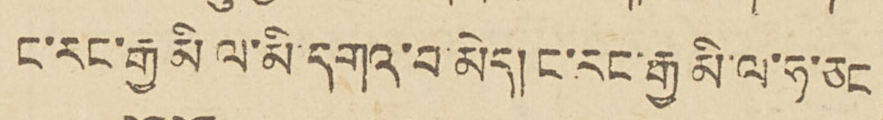ང་རང་རྒྱ མི ལ་མི་དགའ་བ་མེད། ང་རང་རྒྱ མི་ལ་ཧ་ཅང
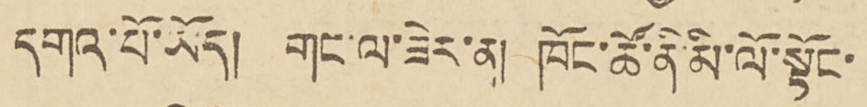དགའ་པོ་ཡོད། གང་ལ་ཟེར་ན། ཁོང་ཚོ་ནི་མི་ལོ་སྟོང་
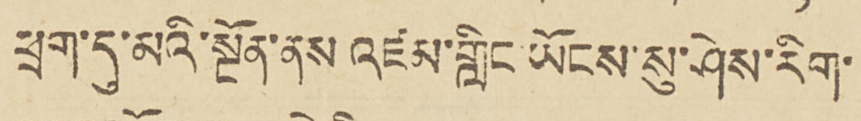ཕྲག་དུ་མའི་སྔོན་ནས འཛམ་གླིང ཡོངས་སུ་ཤེས་རིག་
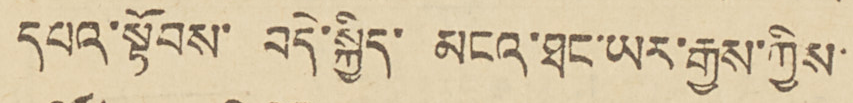དཔའ་སྟོབས་བདེ་སྐྱིད་མངའ་ཐང་ཡར་རྒྱས་ཀྱིས་
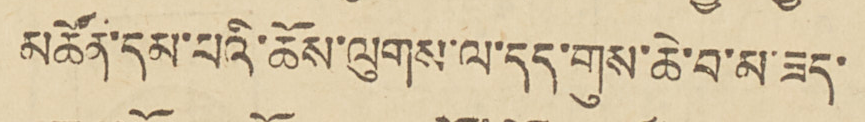མཚོན་དམ་པའི་ཆོས་ལུགས་ལ་དད་གུས་ཆེ་བ་མ་ཟད་
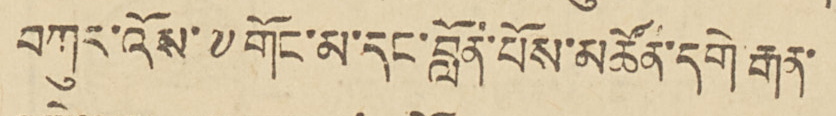བཀུར་འོས་༸གོང་མ་དང་བློན་པོས་མཚོན་དགེ་རྒན་
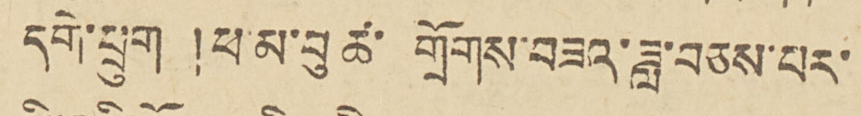དགེ་ཕྲུག །ཕ་མ་བུ་ཚ་གྲོགས་བཟའ་ཟླ་བཅས་པར་
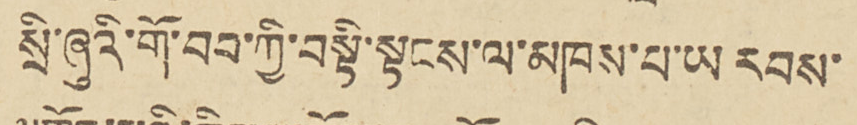སྲི་ཞུའི་གོ་བབ་ཀྱི་བསྟི་སྟངས་ལ་མཁས་པ་ཡ རབས་
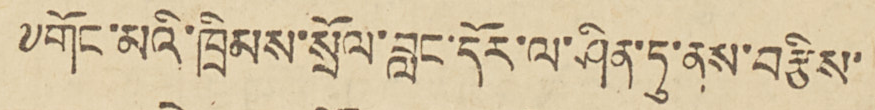༸གོང་མའི་ཁྲིམས་སྲོལ་བླང་དོར་ལ་ཤིན་ཏུ་ནས་བརྩིས་
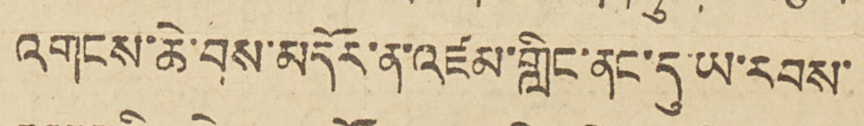འགངས་ཆེ་བས་མདོར་ན་འཛམ་གླིང་ནང་དུ་ཡ་རབས་
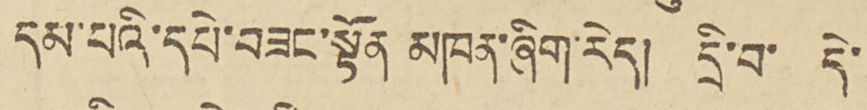དམ་པའི་དཔེ་བཟང་སྟོན མཁན་ཞིག་རེད། དྲི་བ་དེ་
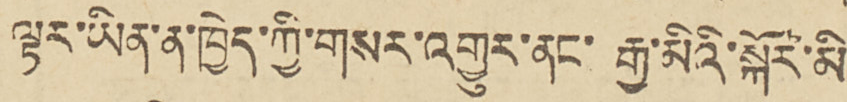ལྟར་ཡིན་ན་ཁྱེད་ཀྱི་གསར་འགྱུར་ནང་རྒྱ་མིའི་སྐོར་མི
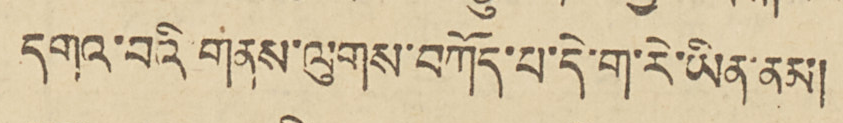དགའ་བའི གནས་ལུགས་བཀོད་པ་དེ་ག་རེ་ཡིན་ནམ།
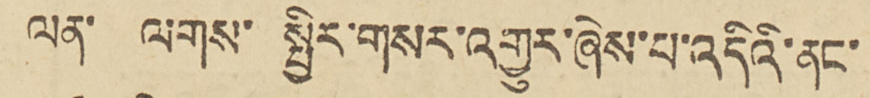ལན་ལགས་སྤྱིར་གསར་འགྱུར་ཞེས་པ་འདིའི་ནང་
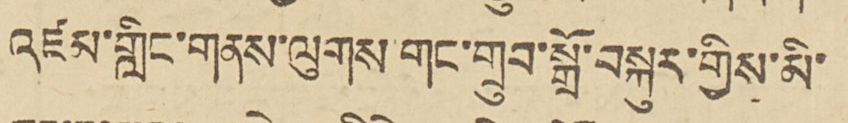འཛམ་གླིང་གནས་ལུགས གང་གྲུབ་སྒྲོ་བསྐུར་གྱིས་མི་
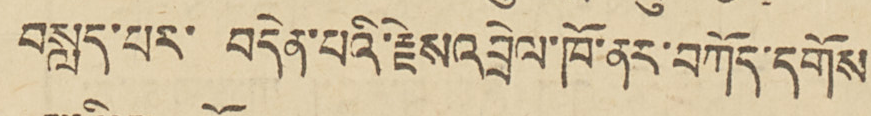བསླད་པར་བདེན་པའི་རྗེས་འབྲེལ་ཁོ་ནར་བཀོད་དགོས
